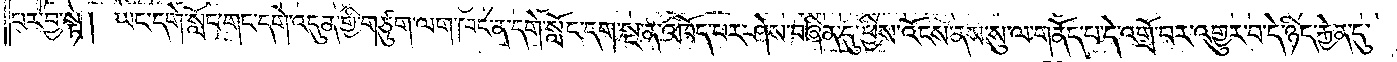པར་བྱ་སྟེ། ཡང་དགེ་སློང་གང་དགེ་འདུན་གྱི་གཙུག་ལག་ཁང་ན་དགེ་སློང་དག་སྔ་ན་འཁོད་པར་ཤེས་བཞིན་དུ་ཕྱིས་འོངས་ནས་སུ་ལ་གནོད་པ་དེ་འགྲོ་བར་འགྱུར་བ་དེ་ཉིད་རྐྱེན་དུ་
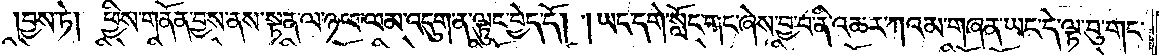བྱས་ཏེ། ཕྱིས་གནོན་བྱས་ནས་སྟན་ལ་ཉལ་ལམ་འདུག་ན་ལྟུང་བྱེད་དོ། །ཡང་དགེ་སློང་གང་ཞེས་བྱ་བ་ནི་འཆར་ཀའམ་གཞན་ཡང་དེ་ལྟ་བུ་གང་
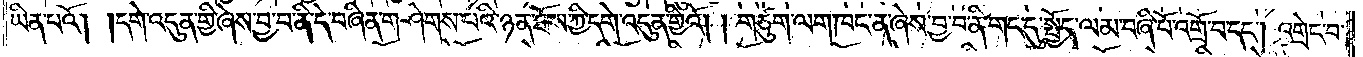ཡིན་པའོ། །དགེ་འདུན་གྱི་ཞེས་བྱ་བ་ནི་དེ་བཞིན་གཤེགས་པའི་ཉན་ཐོས་ཀྱི་དགེ་འདུན་གྱིའོ། །གཙུག་ལག་ཁང་ན་ཞེས་བྱ་བ་ནི་གང་དུ་སྤྱོད་ལམ་བཞི་པོ་འགྲོ་བ་དང༌། འགྲེང་བ་
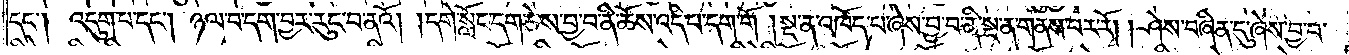དང༌། འདུག་པ་དང༌། ཉལ་བ་དག་བྱར་རུང་བ་ནའོ། །དགེ་སློང་དག་ཅེས་བྱ་བ་ནི་ཆོས་འདི་པ་དག་གོ །སྔ་ན་འཁོད་པ་ཞེས་བྱ་བ་ནི་སྔ་ན་གནས་པར་རོ། །ཤེས་བཞིན་དུ་ཞེས་བྱ་བ་
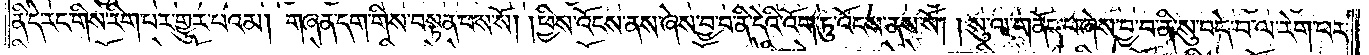ནི་དེ་རང་གིས་རིག་པར་གྱུར་པའམ། གཞན་དག་གིས་བསྟན་པས་སོ། །ཕྱིས་འོངས་ནས་ཞེས་བྱ་བ་ནི་དེའི་འོག་ཏུ་འོངས་ནས་སོ། །སུ་ལ་གནོད་པ་ཞེས་བྱ་བ་ནི་སུ་བདེ་བ་ལ་རེག་པར་
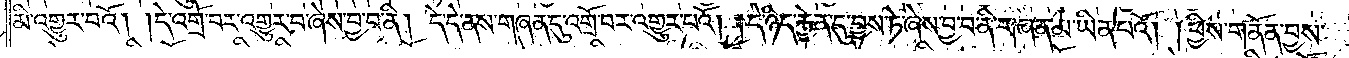མི་འགྱུར་བའོ། །དེ་འགྲོ་བར་འགྱུར་བ་ཞེས་བྱ་བ་ནི། དེ་དེ་ནས་གཞན་དུ་འགྲོ་བར་འགྱུར་བའོ། །དེ་ཉིད་རྐྱེན་དུ་བྱས་ཏེ་ཞེས་བྱ་བ་ནི་གཞན་མ་ཡིན་པའོ། །ཕྱིས་གནོན་བྱས་
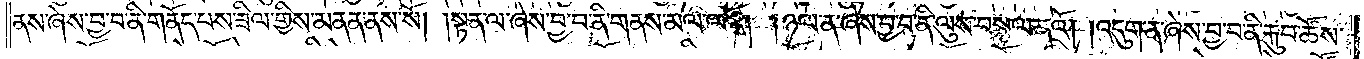ནས་ཞེས་བྱ་བ་ནི་གནོད་པས་ཟིལ་གྱིས་མནན་ནས་སོ། །སྟན་ལ་ཞེས་བྱ་བ་ནི་གནས་མལ་ལའོ། །ཉལ་ན་ཞེས་བྱ་བ་ནི་ལུས་བསྙལ་ནའོ། །འདུག་ན་ཞེས་བྱ་བ་ནི་རྐུབ་ཚོས་
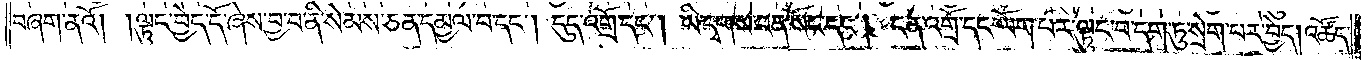བཞག་ནའོ། །ལྟུང་བྱེད་དོ་ཞེས་བྱ་བ་ནི་སེམས་ཅན་དམྱལ་བ་དང༌། དུད་འགྲོ་དང༌། ཡི་དྭགས་ངན་སོང་དང༌། ངན་འགྲོ་དང་ལོག་པར་ལྟུང་བ་དག་ཏུ་སྲེག་པར་བྱེད། འཚོད་
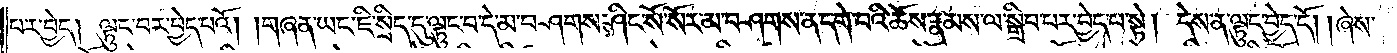པར་བྱེད། ལྟུང་བར་བྱེད་པའོ། །གཞན་ཡང་ཇི་སྲིད་དུ་ལྟུང་བ་དེ་མ་བཤགས་ཤིང་སོ་སོར་མ་བཤགས་ན་དགེ་བའི་ཆོས་རྣམས་ལ་སྒྲིབ་པར་བྱེད་པ་སྟེ། དེས་ན་ལྟུང་བྱེད་དོ། །ཞེས་
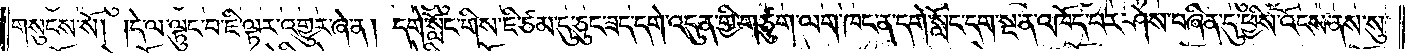གསུངས་སོ། །དེ་ལ་ལྟུང་བ་ཇི་ལྟར་འགྱུར་ཞེ་ན། དགེ་སློང་གིས་ཇི་ཙམ་དུ་ཅུང་ཟད་དགེ་འདུན་གྱི་གཙུག་ལག་ཁང་ན་དགེ་སློང་དག་སྔ་ན་འཁོད་པར་ཤེས་བཞིན་དུ་ཕྱིས་འོངས་ནས་སུ་
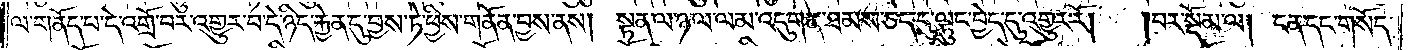ལ་གནོད་པ་དེ་འགྲོ་བར་འགྱུར་བ་དེ་ཉིད་རྐྱེན་དུ་བྱས་ཏེ་ཕྱིས་གནོན་བྱས་ནས། སྟན་ལ་ཉལ་ལམ་འདུག་ན་ཐམས་ཅད་དུ་ལྟུང་བྱེད་དུ་འགྱུར་རོ། །བར་སྡོམ་ལ། ངན་དང་གསོད་
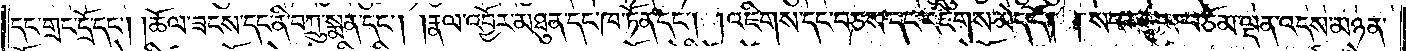དང་གྲང་དྲོ་དང༌། ཆོལ་ཟངས་དང་ནི་བཀྲུ་སྨན་དང༌། །རྣལ་འབྱོར་མཐུན་དང་ཁ་ཏོན་དང༌། འཇིགས་དང་བཅས་དང་འཇིགས་མེད་དོ། །སངས་རྒྱས་བཅོམ་ལྡན་འདས་མཉན་
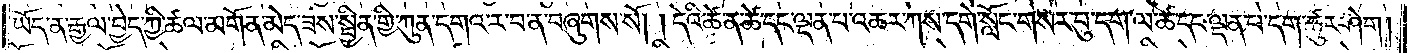ཡོད་ན་རྒྱལ་བྱེད་ཀྱི་ཚལ་མགོན་མེད་ཟས་སྦྱིན་གྱི་ཀུན་དགའ་ར་བ་ན་བཞུགས་སོ། །དེའི་ཚེ་ན་ཚེ་དང་ལྡན་པ་འཆར་ཀས་དགེ་སློང་གསར་བུ་དག་ལ་ཚེ་དང་ལྡན་པ་དག་ཚུར་ཤེག །
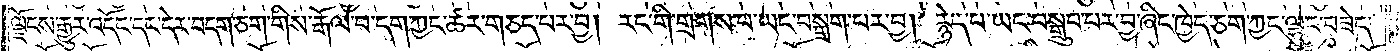ལྗོངས་རྒྱུར་འདོང་དང་དེར་བདག་ཅག་གིས་རྒོལ་བ་དག་ཀྱང་ཚར་གཅད་པར་བྱ། རང་གི་གྲགས་པ་ཡང་བསྒྲག་པར་བྱ། རྙེད་པ་ཡང་བསྒྲུབ་པར་བྱ་ཞིང་ཁྱེད་ཅག་ཀྱང་ལྷུང་བཟེད་
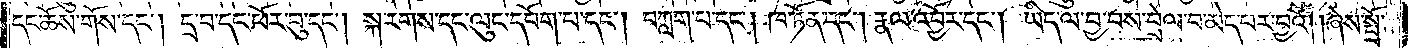དང་ཆོས་གོས་དང༌། དྲ་བ་དང་ཕོར་བུ་དང༌། སྐ་རགས་དང་ལུང་དཔོག་པ་དང༌། བཀླག་པ་དང༌། ཁ་ཏོན་དང༌། རྣལ་འབྱོར་དང༌། ཡིད་ལ་བྱ་བས་བྲེལ་བ་མེད་པར་བྱའོ། །ཞེས་སྤྲོ་
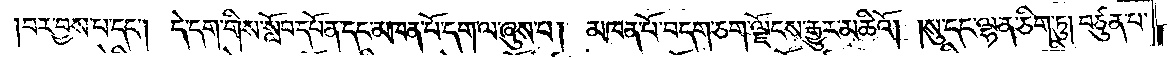བར་བྱས་པ་དང༌། དེ་དག་གིས་སློབ་དཔོན་དང་མཁན་པོ་དག་ལ་ཞུས་པ། མཁན་པོ་བདག་ཅག་ལྗོངས་རྒྱུར་མཆིའོ། །སུ་དང་ལྷན་ཅིག་ཏུ། བཙུན་པ་
